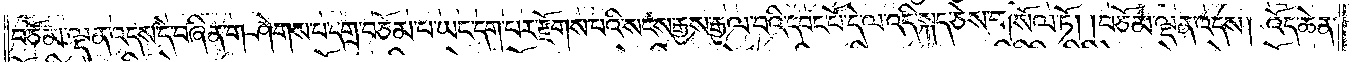བཅོམ་ལྡན་འདས་དེ་བཞིན་གཤེགས་པ་དགྲ་བཅོམ་པ་ཡང་དག་པར་རྫོགས་པའི་སངས་རྒྱས་རྒྱལ་བའི་དབང་པོ་དེ་ལ་འདི་སྐད་ཅེས་གསོལ་ཏོ། །བཅོམ་ལྡན་འདས། འོད་ཆེན་
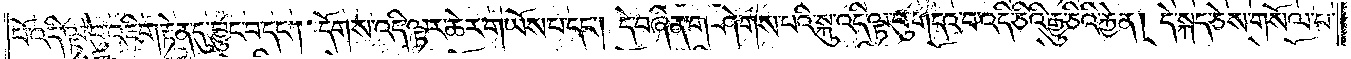པོ་འདི་ལྟ་བུ་འཇིག་རྟེན་དུ་བྱུང་བ་དང༌། དོག་ས་འདི་ལྟར་ཆེར་གཡོས་པ་དང༌། དེ་བཞིན་གཤེགས་པའི་སྐུ་འདི་ལྟ་བུ་གདའ་བ་འདི་ཅིའི་རྒྱུ་ཅིའི་རྐྱེན། དེ་སྐད་ཅེས་གསོལ་པ་
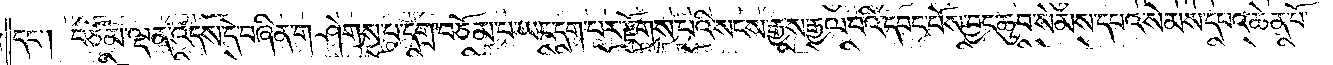དང༌། བཅོམ་ལྡན་འདས་དེ་བཞིན་གཤེགས་པ་དགྲ་བཅོམ་པ་ཡང་དག་པར་རྫོགས་པའི་སངས་རྒྱས་རྒྱལ་བའི་དབང་པོས་བྱང་ཆུབ་སེམས་དཔའ་སེམས་དཔའ་ཆེན་པོ་
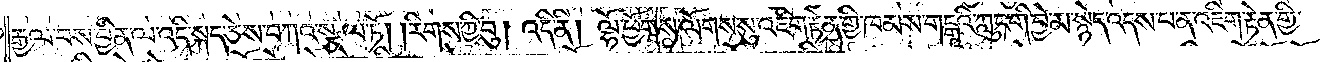རྒྱལ་བས་བྱིན་ལ་འདི་སྐད་ཅེས་བཀའ་སྩལ་ཏོ། །རིགས་ཀྱི་བུ། འདི་ནི། ལྷོ་ཕྱོགས་ལོགས་སུ་འཇིག་རྟེན་གྱི་ཁམས་གངྒཱའི་ཀླུང་གི་བྱེ་མ་སྙེད་འདས་པ་ན་འཇིག་རྟེན་གྱི་
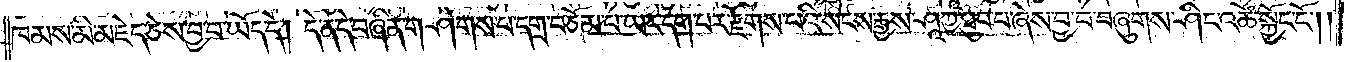ཁམས་མི་མཇེད་ཅེས་བྱ་བ་ཡོད་དེ། དེ་ན་དེ་བཞིན་གཤེགས་པ་དགྲ་བཅོམ་པ་ཡང་དག་པར་རྫོགས་པའི་སངས་རྒྱས་ཤཱཀྱ་ཐུབ་པ་ཞེས་བྱ་བ་བཞུགས་ཤིང་འཚོ་སྐྱོང་ངོ༌༎
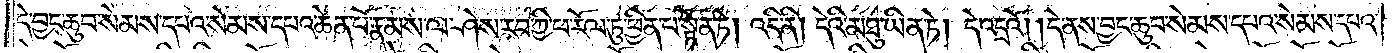དེ་བྱང་ཆུབ་སེམས་དཔའ་སེམས་དཔའ་ཆེན་པོ་རྣམས་ལ་ཤེས་རབ་ཀྱི་ཕ་རོལ་ཏུ་ཕྱིན་པ་སྟོན་ཏེ། འདི་ནི། དེའི་མཐུ་ཡིན་ཏེ། དེ་འདྲའོ། །དེ་ནས་བྱང་ཆུབ་སེམས་དཔའ་སེམས་དཔའ་
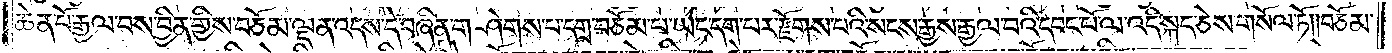ཆེན་པོ་རྒྱལ་བས་བྱིན་གྱིས་བཅོམ་ལྡན་འདས་དེ་བཞིན་གཤེགས་པ་དགྲ་བཅོམ་པ་ཡང་དག་པར་རྫོགས་པའི་སངས་རྒྱས་རྒྱལ་བའི་དབང་པོ་ལ་འདི་སྐད་ཅེས་གསོལ་ཏོ། །བཅོམ་
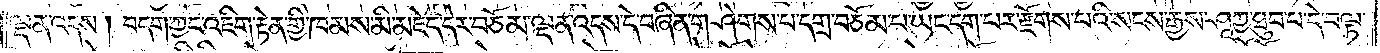ལྡན་འདས། བདག་ཀྱང་འཇིག་རྟེན་གྱི་ཁམས་མི་མཇེད་དེར་བཅོམ་ལྡན་འདས་དེ་བཞིན་གཤེགས་པ་དགྲ་བཅོམ་པ་ཡང་དག་པར་རྫོགས་པའི་སངས་རྒྱས་ཤཱཀྱ་ཐུབ་པ་དེ་བལྟ་
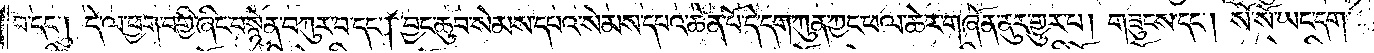བ་དང༌། དེ་ལ་ཕྱག་བགྱི་ཞིང་བསྙེན་བཀུར་བ་དང༌། བྱང་ཆུབ་སེམས་དཔའ་སེམས་དཔའ་ཆེན་པོ་དེ་དག་ཀུན་ཀྱང་ཕལ་ཆེར་གཞོན་ནུར་གྱུར་པ། གཟུངས་དང༌། སོ་སོ་ཡང་དག་
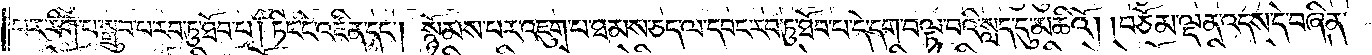པར་རིག་པ་སྒྲུབ་པ་རབ་ཏུ་ཐོབ་པ། ཏིང་ངེ་འཛིན་དང༌། སྙོམས་པར་འཇུག་པ་ཐམས་ཅད་ལ་དབང་རབ་ཏུ་ཐོབ་པ་དེ་དག་བལྟ་བའི་སླད་དུ་མཆིའོ། །བཅོམ་ལྡན་འདས་དེ་བཞིན་
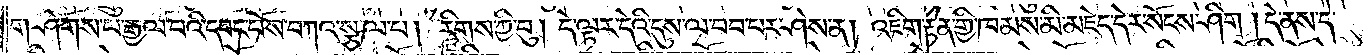གཤེགས་པ་རྒྱལ་པའི་དབང་པོས་བཀའ་སྩལ་པ། རིགས་ཀྱི་བུ། དེ་ལྟར་དེའི་དུས་ལ་བབ་པར་ཤེས་ན། འཇིག་རྟེན་གྱི་ཁམས་མི་མཇེད་དེར་སོངས་ཤིག །དེ་ནས་དེ་
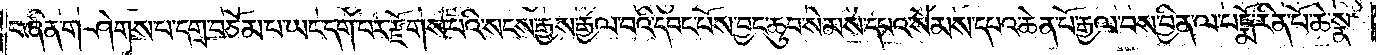བཞིན་གཤེགས་པ་དགྲ་བཅོམ་པ་ཡང་དག་པར་རྫོགས་པའི་སངས་རྒྱས་རྒྱལ་བའི་དབང་པོས་བྱང་ཆུབ་སེམས་དཔའ་སེམས་དཔའ་ཆེན་པོ་རྒྱལ་བས་བྱིན་ལ་པདྨོ་རིན་པོ་ཆེ་སྣ་
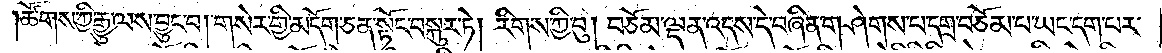ཚོགས་ཀྱི་རྒྱུ་ལས་བྱུང་བ། གསེར་གྱི་མདོག་ཅན་སྟོང་བསྐུར་ཏེ། རིགས་ཀྱི་བུ། བཅོམ་ལྡན་འདས་དེ་བཞིན་གཤེགས་པ་དགྲ་བཅོམ་པ་ཡང་དག་པར་
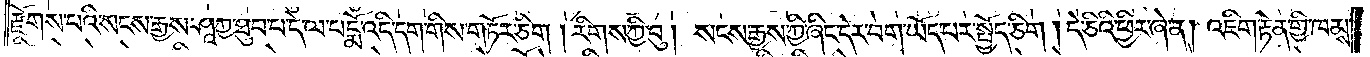རྫོགས་པའི་སངས་རྒྱས་ཤཱཀྱ་ཐུབ་པ་དེ་ལ་པདྨོ་འདི་དག་གིས་གཏོར་ཅིག །རིགས་ཀྱི་བུ། སངས་རྒྱས་ཀྱི་ཞིང་དེར་བག་ཡོད་པར་སྤྱོད་ཅིག །དེ་ཅིའི་ཕྱིར་ཞེ་ན། འཇིག་རྟེན་གྱི་ཁམས་
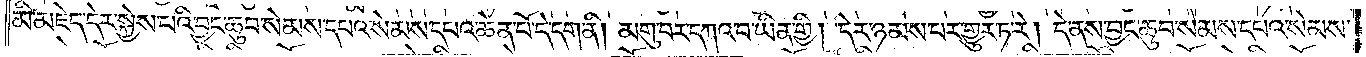མི་མཇེད་དེར་སྐྱེས་པའི་བྱང་ཆུབ་སེམས་དཔའ་སེམས་དཔའ་ཆེན་པོ་དེ་དག་ནི། མགུ་བར་དཀའ་བ་ཡིན་གྱི། དེར་ཉམས་པར་གྱུར་ཏ་རེ། དེ་ནས་བྱང་ཆུབ་སེམས་དཔའ་སེམས་
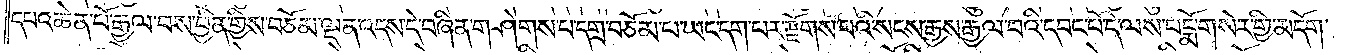དཔའ་ཆེན་པོ་རྒྱལ་བས་བྱིན་གྱིས་བཅོམ་ལྡན་འདས་དེ་བཞིན་གཤེགས་པ་དགྲ་བཅོམ་པ་ཡང་དག་པར་རྫོགས་པའི་སངས་རྒྱས་རྒྱལ་བའི་དབང་པོ་དེ་ལས་པདྨོ་གསེར་གྱི་མདོག་
